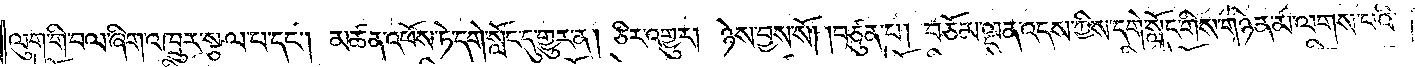ལུག་གི་བལ་ཞིག་འཁྲུར་སྩལ་པ་དང༌། མཚན་འཕོས་ཏེ་དགེ་སློང་དུ་གྱུར་ན། ཅིར་འགྱུར། ཉེས་བྱས་སོ། བཙུན་པ། བཅོམ་ལྡན་འདས་ཀྱིས་དགེ་སློང་གིས་གཉེན་མ་ལགས་པའི་
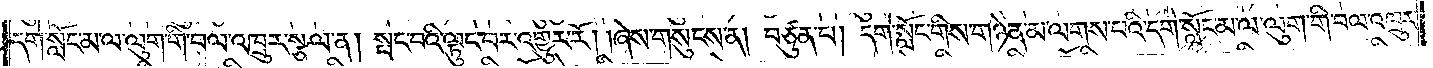དགེ་སློང་མ་ལ་ལུག་གི་བལ་འཁྲུར་སྩལ་ན། སྤང་བའི་ལྟུང་བར་འགྱུར་རོ། །ཞེས་གསུངས་ན། བཙུན་པ། དགེ་སློང་གིས་གཉེན་མ་ལགས་པའི་དགེ་སློང་མ་ལ་ལུག་གི་བལ་འཁྲུར་
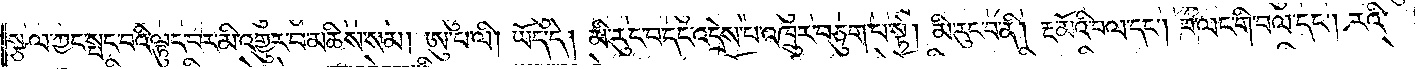སྩལ་ཀྱང་སྤང་བའི་ལྟུང་བར་མི་འགྱུར་བ་མཆིས་སམ། ཨུ་པ་ལི། ཡོད་དེ། མི་རུང་བ་དང་འདྲེས་པ་འཁྲུར་བཅུག་པ་སྟེ། མི་རུང་བ་ནི། རྔ་མོའི་བལ་དང༌། བ་ལང་གི་བལ་དང༌། རའི་
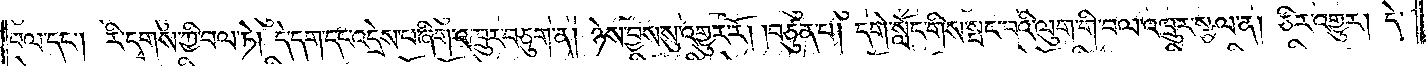བལ་དང༌། རི་དྭགས་ཀྱི་བལ་ཏེ། དེ་དག་དང་འདྲེས་པ་ཞིག་འཁྲུར་བཅུག་ན། ཉེས་བྱས་སུ་འགྱུར་རོ། །བཙུན་པ། དགེ་སློང་གིས་སྤང་བའི་ལུག་གི་བལ་འཁྲུར་སྩལ་ན། ཅིར་འགྱུར། དེ་
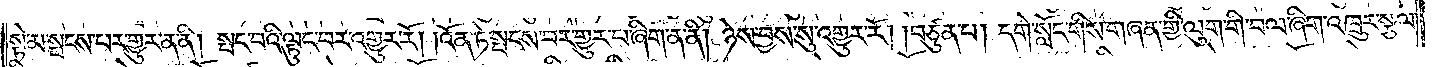སྟེ་མ་སྤངས་པར་གྱུར་ན་ནི། སྤང་བའི་ལྟུང་བར་འགྱུར་རོ། །འོན་ཏེ་སྤངས་པར་གྱུར་པ་ཞིག་ན་ནི། ཉེས་བྱས་སུ་འགྱུར་རོ། །བཙུན་པ། དགེ་སློང་གིས་གཞན་གྱི་ལུག་གི་བལ་ཞིག་འཁྲུར་སྩལ་
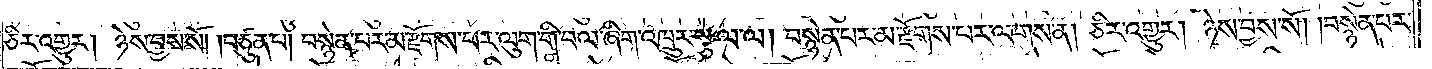ཅིར་འགྱུར། ཉེས་བྱས་སོ། །བཙུན་པ། བསྙེན་པར་མ་རྫོགས་པར་ལུག་གི་བལ་ཞིག་འཁྲུར་སྩལ་ལ། བསྙེན་པར་མ་རྫོགས་པར་ལགས་ན། ཅིར་འགྱུར། ཉེས་བྱས་སོ། །བསྙེན་པར་
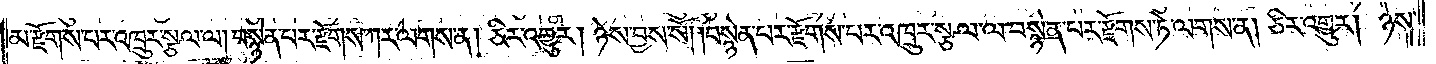མ་རྫོགས་པར་འཁྲུར་སྩལ་ལ། བསྙེན་པར་རྫོགས་ཀར་ལགས་ན། ཅིར་འགྱུར། ཉེས་བྱས་སོ། །བསྙེན་པར་རྫོགས་པར་འཁྲུར་སྩལ་ལ་བསྙེན་པར་རྫོགས་ཏེ་ལགས་ན། ཅིར་འགྱུར། ཉེས་
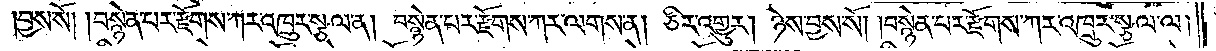།བྱས་སོ། །བསྙེན་པར་རྫོགས་ཀར་འཁྲུར་སྩལ་ན། བསྙེན་པར་རྫོགས་ཀར་ལགས་ན། ཅིར་འགྱུར། ཉེས་བྱས་སོ། །བསྙེན་པར་རྫོགས་ཀར་འཁྲུར་སྩལ་ལ།
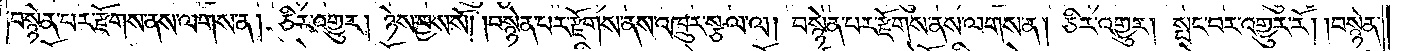བསྙེན་པར་རྫོགས་ནས་ལགས་ན། ཅིར་འགྱུར། ཉེས་བྱས་སོ། །བསྙེན་པར་རྫོགས་ནས་འཁྲུར་སྩལ་ལ། བསྙེན་པར་རྫོགས་ནས་ལགས་ན། ཅིར་འགྱུར། སྤང་བར་འགྱུར་རོ། །བསྙེན་
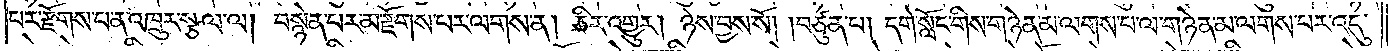པར་རྫོགས་པ་ན་འཁྲུར་སྩལ་ལ། བསྙེན་པར་མ་རྫོགས་པར་ལགས་ན། ཅིར་འགྱུར། ཉེས་བྱས་སོ། །བཙུན་པ། དགེ་སློང་གིས་གཉེན་མ་ལགས་པ་ལ་གཉེན་མ་ལགས་པར་འདུ་
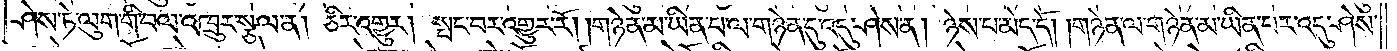ཤེས་ཏེ་ལུག་གི་བལ་འཁྲུར་སྩལ་ན། ཅིར་འགྱུར། སྤང་བར་འགྱུར་རོ། །གཉེན་མ་ཡིན་པ་ལ་གཉེན་དུ་འདུ་ཤེས་ན། ཉེས་པ་མེད་དོ། །གཉེན་ལ་གཉེན་མ་ཡིན་པར་འདུ་ཤེས་
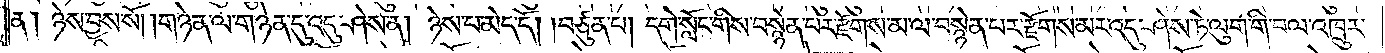ན། ཉེས་བྱས་སོ། །གཉེན་ལ་གཉེན་དུ་འདུ་ཤེས་ན། ཉེས་པ་མེད་དོ། །བཙུན་པ། དགེ་སློང་གིས་བསྙེན་པར་རྫོགས་མ་ལ་བསྙེན་པར་རྫོགས་མར་འདུ་ཤེས་ཏེ་ལུག་གི་བལ་འཁྲུར་
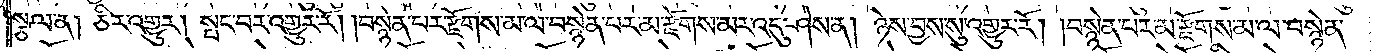སྩལ་ན། ཅིར་འགྱུར། སྤང་བར་འགྱུར་རོ། །བསྙེན་པར་རྫོགས་མ་ལ་བསྙེན་པར་མ་རྫོགས་མར་འདུ་ཤེས་ན། ཉེས་བྱས་སུ་འགྱུར་རོ། །བསྙེན་པར་མ་རྫོགས་མ་ལ་བསྙེན་
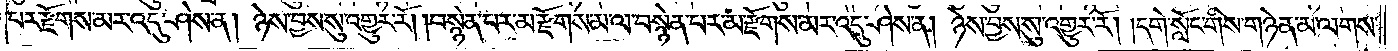པར་རྫོགས་མར་འདུ་ཤེས་ན། ཉེས་བྱས་སུ་འགྱུར་རོ། །བསྙེན་པར་མ་རྫོགས་མ་ལ་བསྙེན་པར་མ་རྫོགས་མར་འདུ་ཤེས་ན། ཉེས་བྱས་སུ་འགྱུར་རོ། །དགེ་སློང་གིས་གཉེན་མ་ལགས་
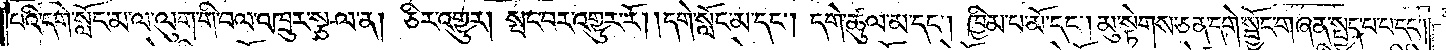པའི་དགེ་སློང་མ་ལ་ལུག་གི་བལ་འཁྲུར་སྩལ་ན། ཅིར་འགྱུར། སྤང་བར་འགྱུར་རོ། །དགེ་སློང་མ་དང༌། དགེ་ཚུལ་མ་དང༌། ཁྱིམ་པ་མོ་དང༌། མུ་སྟེགས་ཅན་དགེ་སྦྱོང་གཞན་སྤྱད་པ་པ་དང༌།
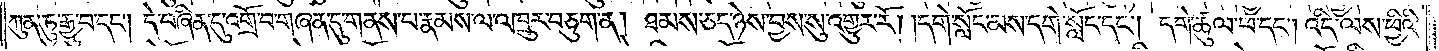ཀུན་ཏུ་རྒྱུ་བ་དང༌། དེ་བཞིན་དུ་འགྲོ་བ་གཞན་དུ་གནས་པ་རྣམས་ལ་འཁྲུར་བཅུག་ན། ཐམས་ཅད་ཉེས་བྱས་སུ་འགྱུར་རོ། །དགེ་སློང་མས་དགེ་སློང་དང༌། དགེ་ཚུལ་ཕ་དང༌། འདི་ལས་ཕྱིའི་
